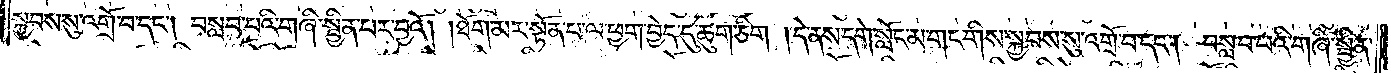སྐྱབས་སུ་འགྲོ་བ་དང༌། བསླབ་པའི་གཞི་སྦྱིན་པར་བྱའོ། །ཐོག་མར་སྟོན་པ་ལ་ཕྱག་བྱེད་དུ་ཆུག་ཅིག །དེ་ནས་དགེ་སློང་མ་གང་གིས་སྐྱབས་སུ་འགྲོ་བ་དང༌། བསླབ་པའི་གཞི་སྦྱིན་
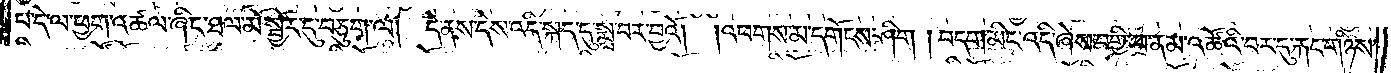པ་དེ་ལ་ཕྱག་འཚལ་ཞིང་ཐལ་མོ་སྦྱོར་དུ་བཅུག་ལ། དེ་ནས་དེས་འདི་སྐད་དུ་སྨྲ་བར་བྱའོ། །འཕགས་མ་དགོངས་ཤིག །བདག་མིང་འདི་ཞེས་བགྱི་བ་ནམ་འཚོའི་བར་དུ་རྐང་གཉིས་
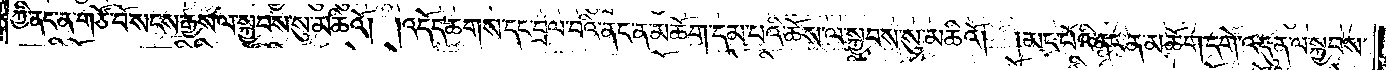ཀྱི་ནང་ན་གཙོ་བོ་སངས་རྒྱས་ལ་སྐྱབས་སུ་མཆིའོ། །འདོད་ཆགས་དང་བྲལ་བའི་ནང་ན་མཆོག་དམ་པའི་ཆོས་ལ་སྐྱབས་སུ་མཆིའོ། །མང་པོའི་ནང་ན་མཆོག་དགེ་འདུན་ལ་སྐྱབས་
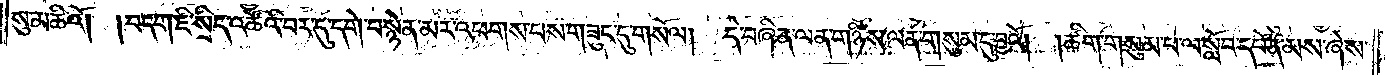སུ་མཆིའོ། །བདག་ཇི་སྲིད་འཚོའི་བར་དུ་དགེ་བསྙེན་མར་འཕགས་པས་གཟུང་དུ་གསོལ། དེ་བཞིན་ལན་གཉིས་ལན་གསུམ་དུ་བྱའོ། །ཚིག་གསུམ་པ་ལ་སློབ་དཔོན་མས་ཞེས་
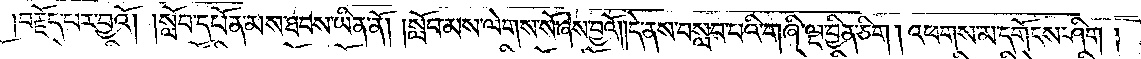བརྗོད་པར་བྱའོ། །སློབ་དཔོན་མས་ཐབས་ཡིན་ནོ། །སློབ་མས་ལེགས་སོ་ཞེས་བྱའོ། །དེ་ནས་བསླབ་པའི་གཞི་ལྔ་བྱིན་ཅིག །འཕགས་མ་དགོངས་ཤིག །
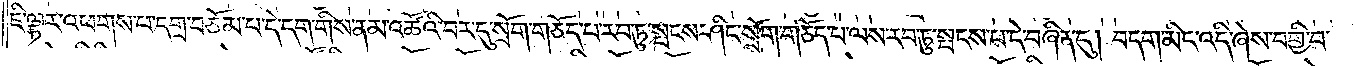ཇི་ལྟར་འཕགས་པ་དགྲ་བཅོམ་པ་དེ་དག་གིས་ནམ་འཚོའི་བར་དུ་སྲོག་གཅོད་པ་རབ་ཏུ་སྤངས་ཤིང་སྲོག་གཅོད་པ་ལས་རབ་ཏུ་སྤང་པ་དེ་བཞིན་དུ། བདག་མིང་འདི་ཞེས་བགྱི་བ་
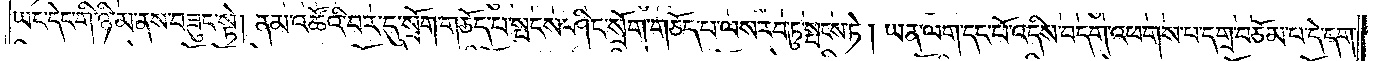ཡང་དེང་གི་ཉི་མ་ནས་བཟུང་སྟེ། ནམ་འཚོའི་བར་དུ་སྲོག་གཅོད་པ་སྤངས་ཤིང་སྲོག་གཅོད་པ་ལས་རབ་ཏུ་སྤངས་ཏེ། ཡན་ལག་དང་པོ་འདིས་བདག་འཕགས་པ་དགྲ་བཅོམ་པ་དེ་དག་
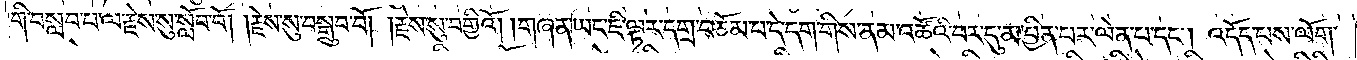གི་བསླབ་པ་ལ་རྗེས་སུ་སློབ་བོ། །རྗེས་སུ་བསྒྲུབ་བོ། །རྗེས་སུ་བགྱིའོ། །གཞན་ཡང་ཇི་ལྟར་དགྲ་བཅོམ་པ་དེ་དག་གིས་ནམ་འཚོའི་བར་དུ་མ་བྱིན་པར་ལེན་པ་དང༌། འདོད་པས་ལོག་
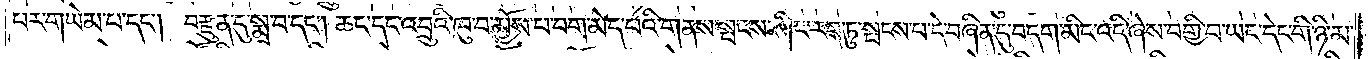པར་གཡེམ་པ་དང༌། བརྫུན་དུ་སྨྲ་བ་དང༌། ཆང་དང་འབྲུའི་ཁུ་བ་མྱོས་པ་བག་མེད་པའི་གནས་སྤངས་ཤིང་རབ་ཏུ་སྤངས་པ་དེ་བཞིན་དུ་བདག་མིང་འདི་ཞེས་བགྱི་བ་ཡང་དེང་གི་ཉི་མ་
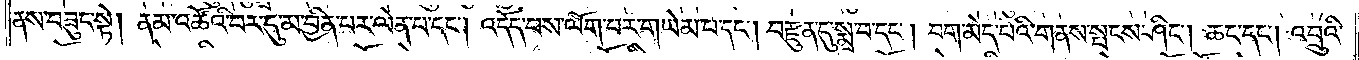ནས་བཟུང་སྟེ། ནམ་འཚོའི་བར་དུ་མ་བྱིན་པར་ལེན་པ་དང༌། འདོད་པས་ལོག་པར་གཡེམ་བ་དང༌། བརྫུན་དུ་སྨྲ་བ་དང༌། བག་མེད་པའི་གནས་སྤངས་ཤིང༌། ཆང་དང༌། འབྲུའི་
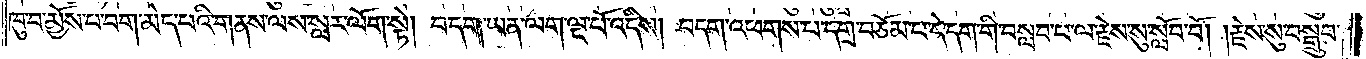ཁུ་བ་མྱོས་པ་བག་མེད་པའི་གནས་ལས་སླར་ལོག་སྟེ། བདག་ཡན་ལག་ལྔ་པོ་འདིས། བདག་འཕགས་པ་དགྲ་བཅོམ་པ་དེ་དག་གི་བསླབ་པ་ལ་རྗེས་སུ་སློབ་བོ། །རྗེས་སུ་བསྒྲུབ་
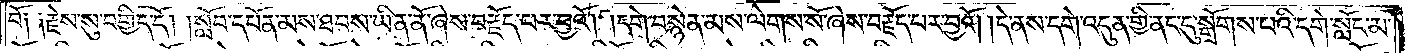བོ༑ ༑རྗེས་སུ་བགྱིད་དོ། །སློབ་དཔོན་མས་ཐབས་ཡིན་ནོ་ཞེས་བརྗོད་པར་བྱའོ། །དགེ་བསྙེན་མས་ལེགས་སོ་ཞེས་བརྗོད་པར་བྱའོ། །དེ་ནས་དགེ་འདུན་གྱི་ནང་དུ་སྒྲོགས་པའི་དགེ་སློང་མ་
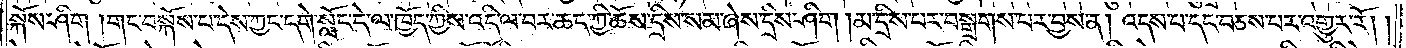སྐོས་ཤིག །གང་བསྐོས་པ་དེས་ཀྱང་དགེ་སློང་དེ་ལ་ཁྱོད་ཀྱིས་འདི་ལ་བར་ཆད་ཀྱི་ཆོས་དྲིས་སམ་ཞེས་དྲིས་ཤིག །མ་དྲིས་པར་བསྒྲགས་པར་བྱས་ན། འདས་པ་དང་བཅས་པར་འགྱུར་རོ། །
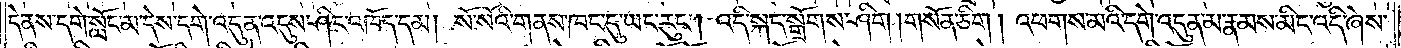དེ་ནས་དགེ་སློང་མ་དེས་དགེ་འདུན་འདུས་ཤིང་འཁོད་དམ། སོ་སོའི་གནས་ཁང་དུ་ཡང་རུང༌། འདི་སྐད་སྒྲོགས་ཤིག །གསོན་ཅིག །འཕགས་མའི་དགེ་འདུན་མ་རྣམས་མིང་འདི་ཞེས་
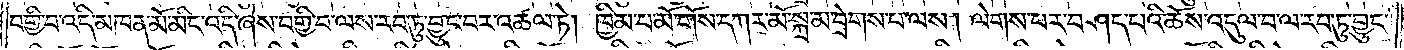བ་གྱི་བ་འདི་མཁན་མོ་མིང་འདི་ཞེས་བགྱི་བ་ལས་རབ་ཏུ་བྱུང་བར་འཚལ་ཏེ། ཁྱིམ་པ་མོ་གོས་དཀར་མོ་སྐྲ་མ་བྲེགས་པ་ལས། ལེགས་པར་བཤད་པའི་ཆོས་འདུལ་བ་ལ་རབ་ཏུ་བྱུང་
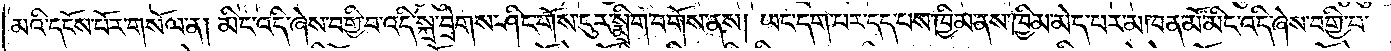མའི་དངོས་པོར་གསོལ་ན། མིང་འདི་ཞེས་བགྱི་བ་འདི་སྐྲ་བྲེགས་ཤིང་གོས་ངུར་སྨྲིག་བགོས་ནས། ཡང་དག་པར་དད་པས་ཁྱིམ་ནས་ཁྱིམ་མེད་པར་མཁན་མོ་མིང་འདི་ཞེས་བགྱི་བ་
